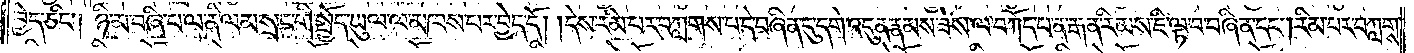བྱེད་ཅིང༌། ཉི་མ་བཞི་པ་ལ་ནི་ལམ་སྲང་གི་སྤྱོད་ཡུལ་ལ་མཁས་པར་བྱེད་དོ། །དེས་རིམ་པར་བཀླགས་པ་དེ་བཞིན་དུ་དགེ་འདུན་རྣམས་ཟས་ལ་བཀོད་པ་ན་རྒན་རིམས་ཇི་ལྟ་བ་བཞིན་དང༌། རིམ་པར་བཀླགས་
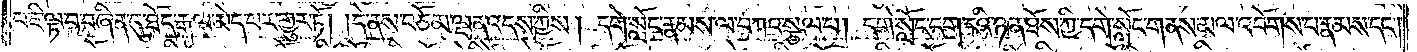པ་ཇི་ལྟ་བ་བཞིན་དུ་ཐོད་རྒལ་མེད་པར་གྱུར་ཏོ། །དེ་ནས་བཅོམ་ལྡན་འདས་ཀྱིས། དགེ་སློང་རྣམས་ལ་བཀའ་སྩལ་པ། དགེ་སློང་དག་ངའི་ཉན་ཐོས་ཀྱི་དགེ་སློང་གནས་མལ་འབོགས་པ་རྣམས་དང༌།
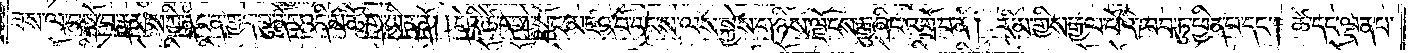ཟས་ལ་བསྐོ་བ་རྣམས་ཀྱི་ནང་ན་གྱད་བུ་ནོར་འདི་མཆོག་ཡིན་ནོ། །དེའི་ཚེ་དགེ་སློང་མཛའ་བོ་དང་ས་ལས་སྐྱེས་གཉིས་ལྗོངས་རྒྱུ་ཞིང་འགྲོ་བ་ན། རིམ་གྱིས་རྒྱལ་པོའི་ཁབ་ཏུ་ཕྱིན་པ་དང༌། ཚེ་དང་ལྡན་པ་
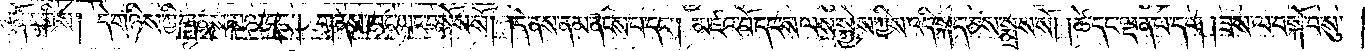ནོར་གྱིས། དེ་གཉིས་ཀྱི་གནས་མལ་དང༌། གནས་ཁང་ཡང་བསྐོས་སོ། །དེ་ནས་ནམ་ནངས་པ་དང༌། མཛའ་བོ་དང་ས་ལས་སྐྱེས་ཀྱིས་འདི་སྐད་ཅེས་སྨྲས་སོ། །ཚེ་དང་ལྡན་པ་དག །ཟས་ལ་བསྐོ་བ་སུ་
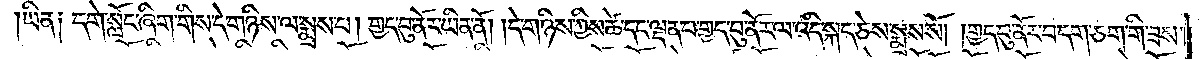ཡིན། དགེ་སློང་ཞིག་གིས་དེ་གཉིས་ལ་སྨྲས་པ། གྱད་བུ་ནོར་ཡིན་ནོ། །དེ་གཉིས་ཀྱིས་ཚེ་དང་ལྡན་པ་གྱད་བུ་ནོར་ལ་འདི་སྐད་ཅེས་སྨྲས་སོ། །གྱད་བུ་ནོར་བདག་ཅག་གི་ཟས་
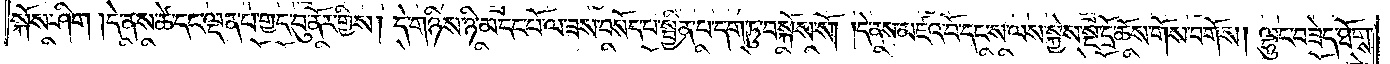སྐོས་ཤིག །དེ་ནས་ཚེ་དང་ལྡན་པ་གྱད་བུ་ནོར་གྱིས། དེ་གཉིས་ཉི་མ་དང་པོ་ལ་ཟས་བསོད་པ་སྦྱིན་པ་དག་ཏུ་བསྐོས་སོ། །དེ་ནས་མཛའ་བོ་དང་ས་ལས་སྐྱེས་སྔ་དྲོ་ཆོས་གོས་བགོས། ལྷུང་བཟེད་ཐོགས་
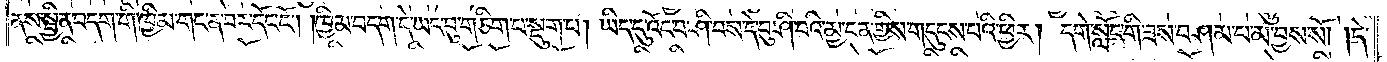ནས་སྦྱིན་བདག་གི་ཁྱིམ་གང་ན་བར་དོང་ངོ༌། །ཁྱིམ་བདག་དེ་ཡང་བུ་གཅིག་པ་སྡུག་པ། ཡིད་དུ་འོང་བ་ཤི་བས་དེ་བུ་ཤི་བའི་མྱ་ངན་གྱིས་གདུངས་པའི་ཕྱིར། དགེ་སློང་གི་ཟས་བཤམ་པ་མ་བྱས་སོ། །དེ་
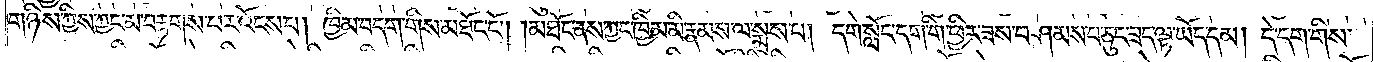གཉིས་ཀྱིས་ཀྱང་མ་བརྟགས་པར་འོངས་པ། ཁྱིམ་བདག་གིས་མཐོང་ངོ༌། །མཐོང་ནས་ཀྱང་ཁྱིམ་མི་རྣམས་ལ་སྨྲས་པ། དགེ་སློང་དག་གི་ཕྱིར་ཟས་བཤམས་པ་ཅུང་ཟས་ལྟ་ཡོད་དམ། དེ་དག་གིས་
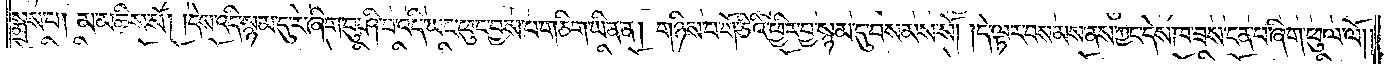སྨྲས་པ། མ་མཆིས་སོ། །དེས་འདི་སྙམ་དུ་རེ་ཞིག་བུ་ཤི་བ་འདི་ཡང་ཕུང་བྱས་པ་གཅིག་ཡིན་ན། གཉིས་པ་གོ་ཅིའི་ཕྱིར་བྱ་སྙམ་དུ་བསམས་སོ། །དེ་ལྟར་བསམས་ནས་ཀྱང་དེས་ཁ་ཟས་ངན་པ་ཞིག་ཕུལ་ལོ། །
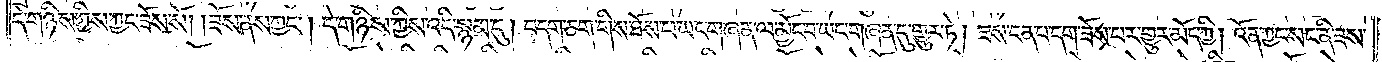དེ་གཉིས་ཀྱིས་ཀྱང་ཟོས་སོ། །ཟོས་ནས་ཀྱང༌། དེ་གཉིས་ཀྱིས་འདི་སྙམ་དུ། བདག་ཅག་གིས་ཐོས་པ་ཡང་གཞན་ལ་མྱོང་བ་ཡང་གཞན་དུ་གྱུར་ཏེ། ཟས་ངན་པ་དག་ཟོས་པར་གྱུར་མོད་ཀྱི། འོན་ཀྱང་སང་ནི་ཟས་
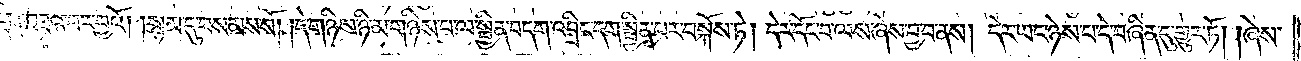བསོད་པ་དག་བཟའ་བར་བྱའོ། །སྙམ་དུ་བསམས་སོ། །དེ་གཉིས་ཉི་མ་གཉིས་པ་ལ་སྦྱིན་བདག་འབྲིང་དག་སྦྱིན་པར་བསྐོས་ཏེ། དེར་དོང་བ་ལས་ཞེས་བྱ་བ་ནས། དེར་ཡང་ཉེས་པ་དེ་བཞིན་དུ་གྱུར་ཏོ། །ཞེས་
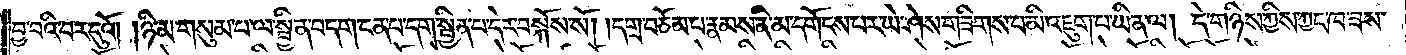བྱ་བའི་བར་དུའོ། །ཉི་མ་གསུམ་པ་ལ་སྦྱིན་བདག་ངན་པ་དག་སྦྱིན་པ་དེར་བསྐོས་སོ། །དགྲ་བཅོམ་པ་རྣམས་ནི་མ་དགོངས་པར་ཡེ་ཤེས་གཟིགས་པ་མི་འཇུག་པ་ཡིན་ལ། དེ་གཉིས་ཀྱིས་ཀྱང་ཁ་ཟས་
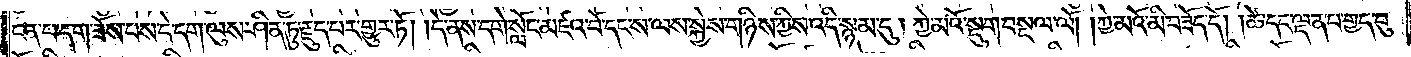ངན་པ་དག་ཟོས་པས་དེ་དག་ལུས་ཤིན་ཏུ་རྗུད་པར་གྱུར་ཏོ། །དེ་ནས་དགེ་སློང་མཛའ་བོ་དང་ས་ལས་སྐྱེས་གཉིས་ཀྱིས་འདི་སྙམ་དུ། ཀྱེ་མའོ་སྡུག་བསྔལ་ལོ། །ཀྱེ་མའོ་མི་བཟོད་དོ། །ཚེ་དང་ལྡན་པ་གྱད་བུ་
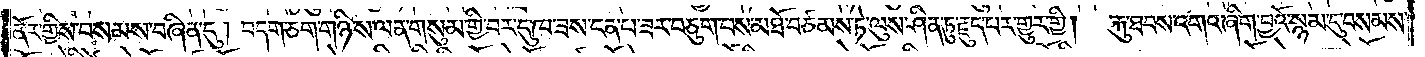ནོར་གྱིས་བསམས་བཞིན་དུ། བདག་ཅག་གཉིས་ལན་གསུམ་གྱི་བར་དུ་ཁ་ཟས་ངན་པ་ཟར་བཅུག་པས་མཐོ་བཙམས་ཏེ་ལུས་ཤིན་ཏུ་རྗུད་པར་གྱུར་གྱི། རྐུ་ཐབས་འགའ་ཞིག་བྱའོ་སྙམ་དུ་བསམས་
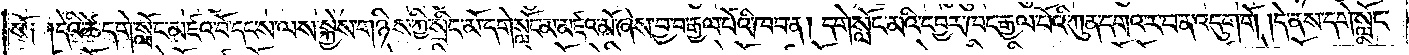སོ། །དེའི་ཚེ་དགེ་སློང་མཛའ་བོ་དང་ས་ལས་སྐྱེས་གཉིས་ཀྱི་སྲིང་མོ་དགེ་སློང་མ་མཛའ་མོ་ཞེས་བྱ་བ་རྒྱལ་པོའི་ཁབ་ན། དགེ་སློང་མའི་དབྱར་ཁང་རྒྱལ་པོའི་ཀུན་དགའ་ར་བ་ན་འདུག་གོ །དེ་ནས་དགེ་སློང་
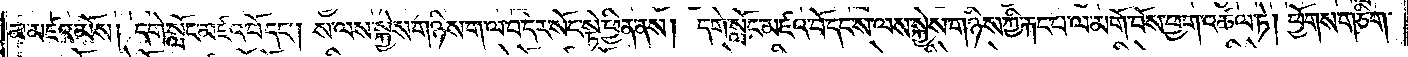མ་མཛའ་མོས། དགེ་སློང་མཛའ་བོ་དང༌། ས་ལས་སྐྱེས་གཉིས་ག་ལ་བ་དེར་སོང་སྟེ་ཕྱིན་ནས། དགེ་སློང་མཛའ་བོ་དང་ས་ལས་སྐྱེས་གཉིས་ཀྱི་རྐང་པ་ལ་མགོ་བོས་ཕྱག་འཚལ་ཏེ། ཕྱོགས་གཅིག་
